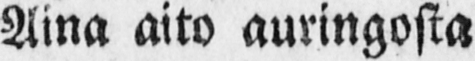Aina aito auringosta
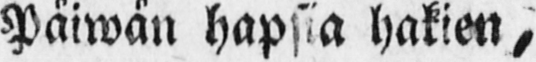Päiwän hapsia hakien,
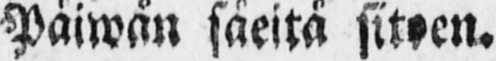Päiwän säeitä sitoen.
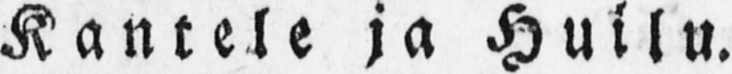Kantele ja Huilu.
